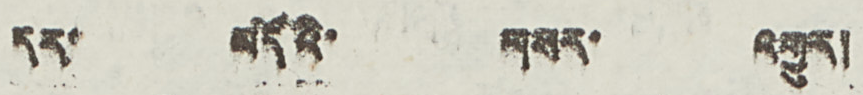དར་ མདོའི་ གསར་ འགྱུར།
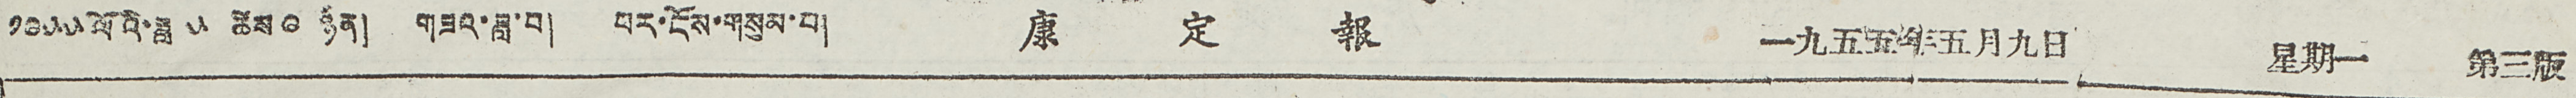༡༩༥༥ལོའི་ཟླ ༥ ཚེས ༩ ཉིན། གཟའ་ཟླ་བ། པར་ངོས་གསུམ་པ། 康 定 報 一九五五年五月九日 星期一 第三版
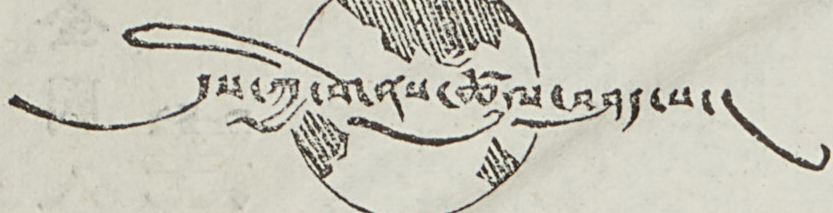དུས་ཀྱི་གནས་ཚུལ་བཤད་པ།
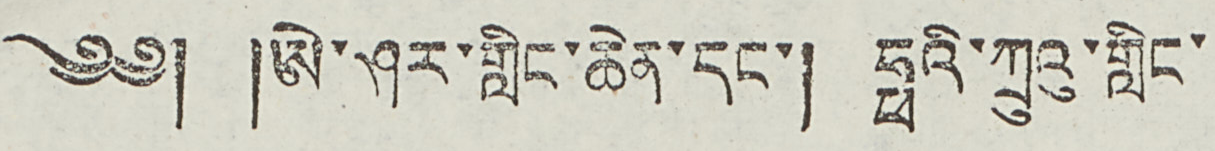༄༅། །ཨེ་ཤར་གླིང་ཆེན་དང་། ཧྥའི་ཀྲུའུ་གླིང་
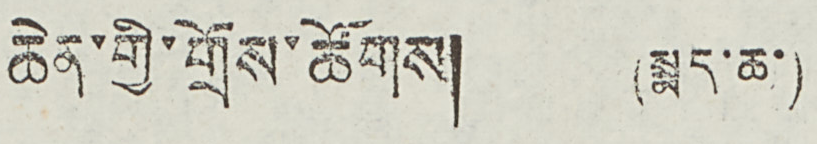ཆེན་གྱི་གྲོས་ཚོགས། (སྨད་ཆ་)
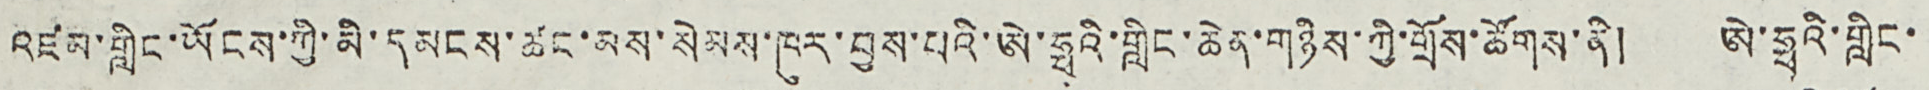འཛམ་གླིང་ཡོངས་ཀྱི་མི་དམངས་ཚང་མས་སེམས་ཁུར་བྱས་པའི་ཨེ་ཧྥའི་གླིང་ཆེན་གཉིས་ཀྱི་གྲོས་ཚོགས་ནི། ཨེ་ཧྥའི་གླིང་
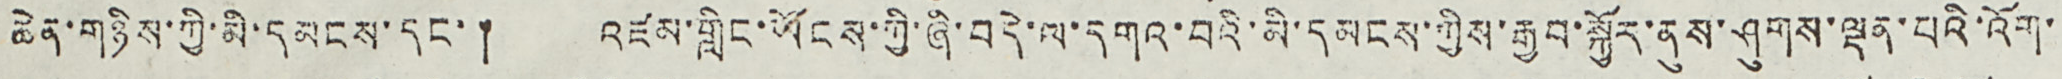ཆེན་གཉིས་ཀྱི་མི་དམངས་དང་། འཛམ་གླིང་ཡོངས་ཀྱི་ཞི་བདེ་ལ་དགའ་བའི་མི་དམངས་ཀྱིས་རྒྱབ་སྐྱོར་ནུས་ཤུགས་ལྡན་པའི་འོག་
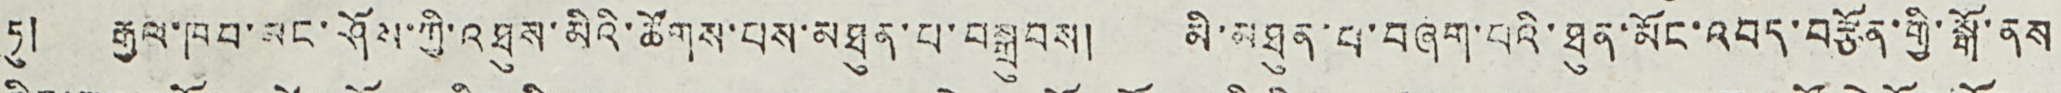ཏུ། རྒྱལ་ཁབ་མང་ཤོས་ཀྱི་འཐུས་མིའི་ཚོགས་པས་མཐུན་པ་བསྒྲུབས། མི་མཐུན་པ་བཞག་པའི་ཐུན་མོང་འབད་བརྩོན་གྱི་སྒོ་ནས
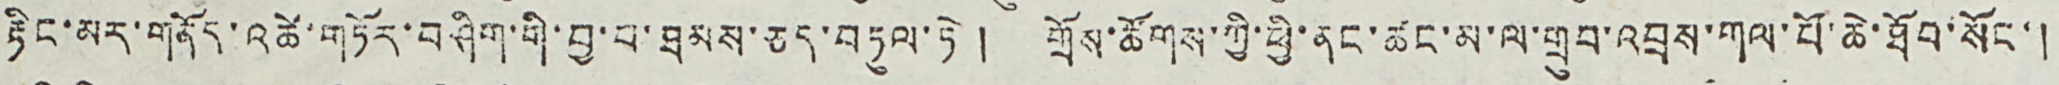རྟིང་མར་གནོར་འཚེ་གཏོར་བཤིག་གི་བྱ་བ་ཐམས་ཅད་བཏུལ་ཏེ ། གྲོས་ཚོགས་ཀྱི་ཕྱི་ནང་ཚང་མ་ལ་གྲུབ་འབྲས་གལ་པོ་ཆེ་ཐོབ་སོང་།
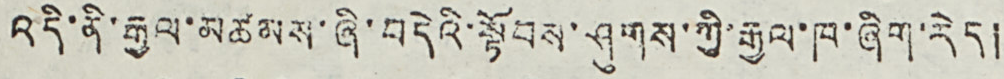འདི་ནི་རྒྱལ་མཚམས་ཞི་བདེའི་སྟོབས་ཤུགས་ཀྱི་རྒྱལ་ཁ་ཞིག་རེད།
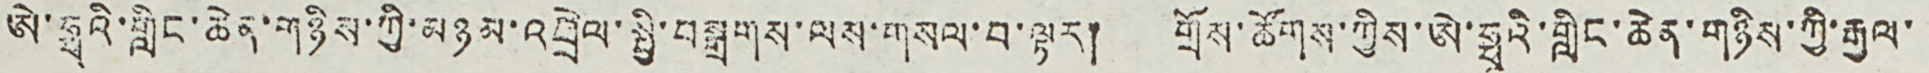ཨེ་ཧྥའི་གླིང་ཆེན་གཉིས་ཀྱི་མཉམ་འབྲེལ་སྤྱི་བསྒྲགས་ལས་གསལ་བ་ལྟར། གྲོས་ཚོགས་ཀྱིས་ཨེ་ཧྥའི་གླིང་ཆེན་གཉིས་ཀྱི་རྒྱལ་
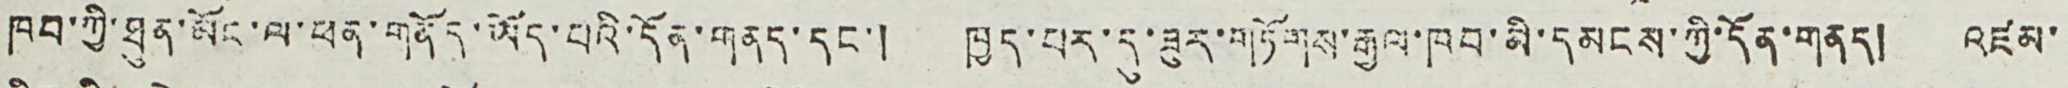ཁབ་ཀྱི་ཐུན་མོང་ལ་ཕན་གནོད་ཡོད་པའི་དོན་གནད་དང་། ཁྱད་པར་དུ་ཟུར་གཏོགས་རྒྱལ་ཁབ་མི་དམངས་ཀྱི་དོན་གནད། འཛམ་
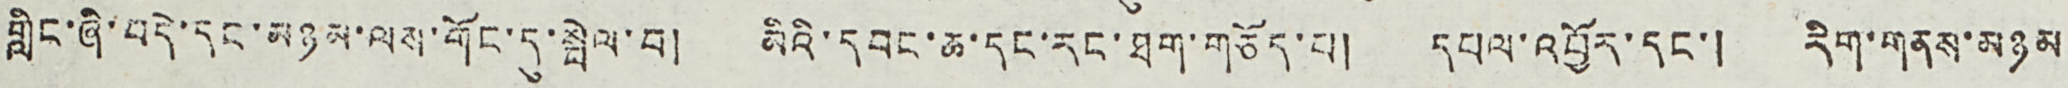གླིང་ཞི་བདེ་དང་མཉམ་ལས་གོང་དུ་སྤེལ་བ། མིའི་དབང་ཆ་དང་རང་ཐག་གཅོད་པ། དཔལ་འབྱོར་དང་། རིག་གནས་མཉམ
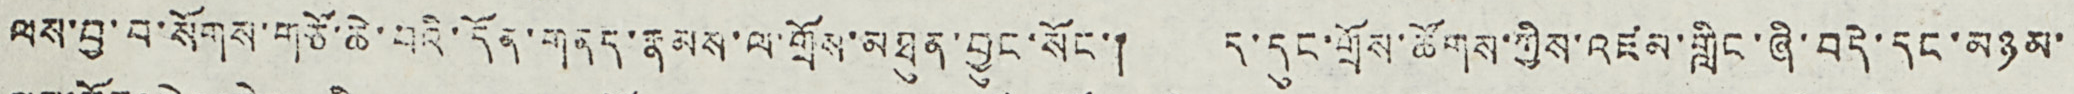ལས་བྱ་བ་སོགས་གཙོ་ཆེན་བའི་དོན་གནད་རྣམས་ལ་གྲོས་མཐུན་བྱུང་སོང་། ད་དུང་གྲོས་ཚོགས་ཀྱིས་འཛམ་གླིང་ཞི་བདེ་དང་མཉམ་
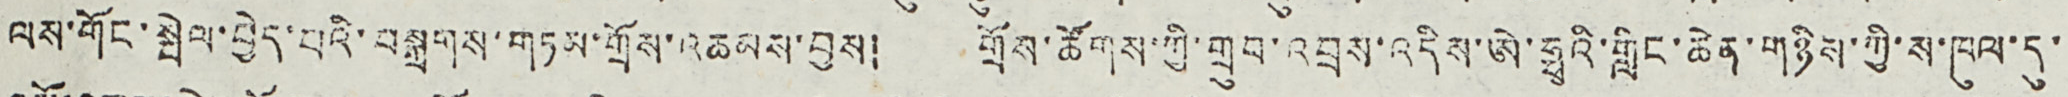ལས་གོང་སྤེལ་བྱེད་པའི་བསྒྲགས་གཏམ་གྲོས་འཆམས་བྱས། གྲོས་ཚོགས་ཀྱི་གྲུབ་འབྲས་འདིས་ཨེ་ཧྥའི་གླིང་ཆེན་གཉིས་ཀྱི་ས་ཁུལ་དུ་
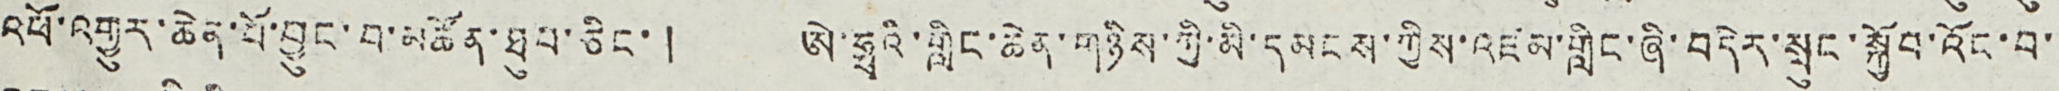འཕོ་འགྱུར་ཆེན་པོ་བྱུང་བ་མཚོན་ཐུབ་ཅིང་། ཨེ་ཧྥའི་གླིང་ཆེན་གཉིས་ཀྱི་མི་དམངས་ཀྱིས་འཛམ་གླིང་ཞི་བདེར་སྲུང་སྐྱོབ་འོང་བ་
